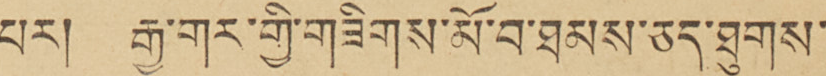པར། རྒྱ་གར་གྱི་གཟིགས་མོ་བ་ཐམས་ཅད་ཐུགས་
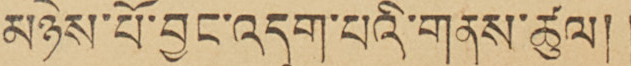མཉེས་པོ་བྱུང་འདུག་པའི་གནས་ཚུལ།།
